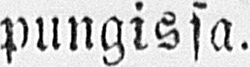pungissa.
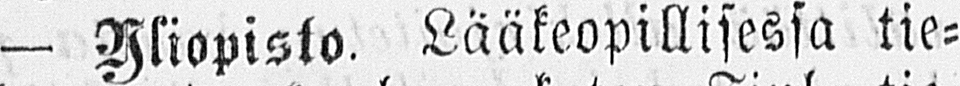— Yliopisto. Lääkeopillisessa tie-
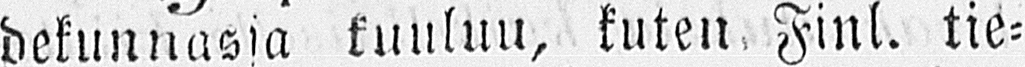dekunnassa kuuluu, kuten Finl. tie-
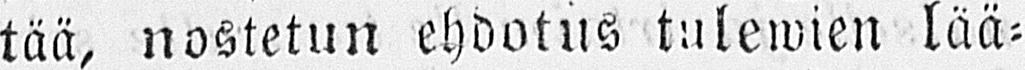tää, nostetun ehdotus tulewien lää-
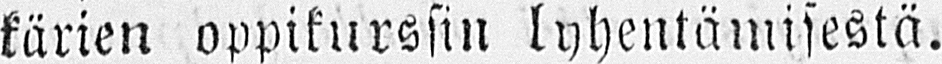kärien oppikurssin lyhentämisestä.
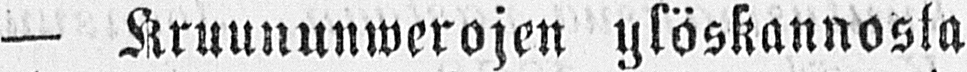— Kruununwerojen ylöskannosla
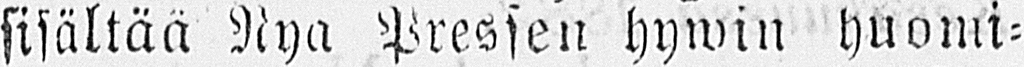sisältää Nya Pressen hywin huomi-
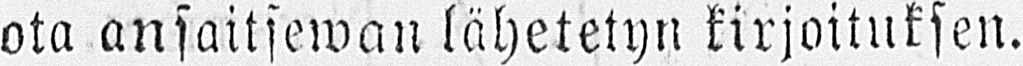ota ansaitsewan lähetetyn kirjoituksen.
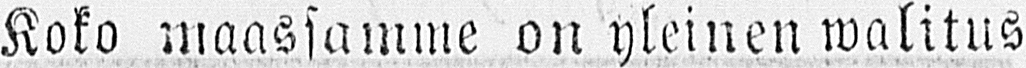Koko maassamme on yleinen walitus
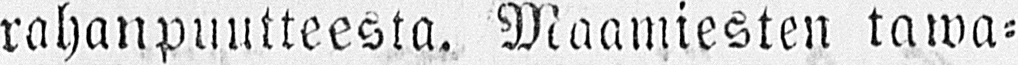rahanpuutteesta. Maamiesten tawa-
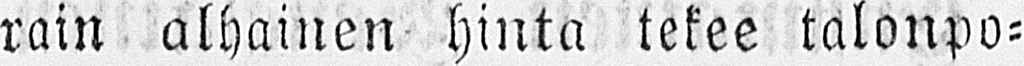rain alhainen hinta tekee talonpo-
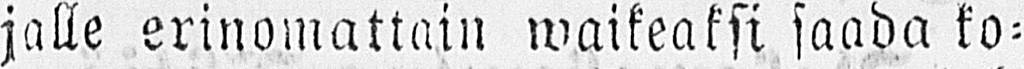jalle erinomattain waikeaksi saada ko-
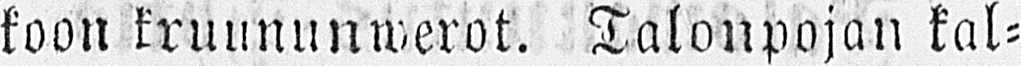koon kruununwerot. Talonpojan kal-
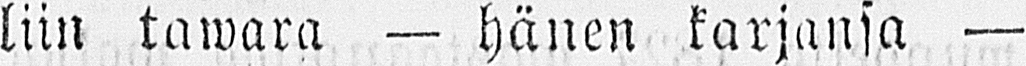liin tawara — hänen karjansa —
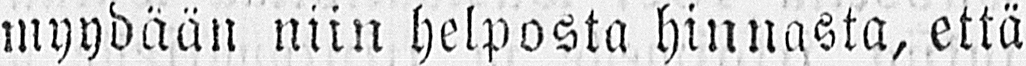myydään niin helposta hinnasta, että
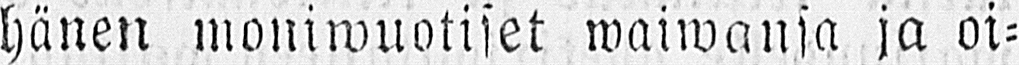hänen moniwuotiset waiwansa ja oi-
